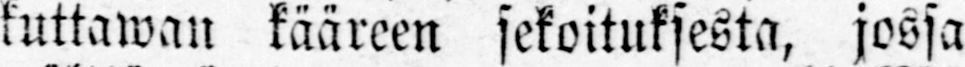kuttawan kääreen sekoituksesta, jossa
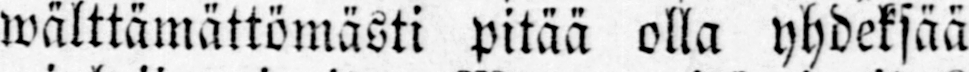wälttämättömästi pitää olla yhdeksää
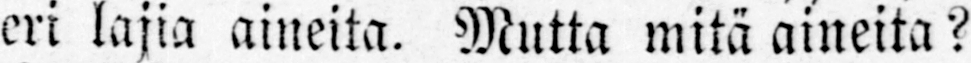eri lajia aineita. Mutta mitä aineita?
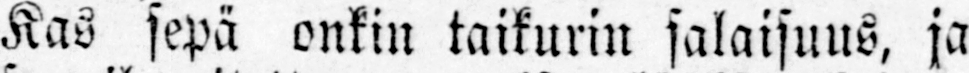Kas sepä onkin taikurin salaisuus, ja
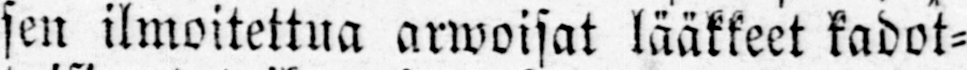sen ilmoitettua arwoisat lääkkeet kadot-
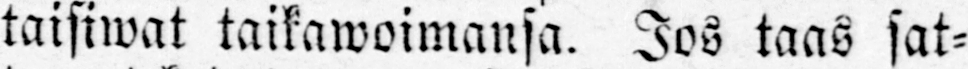taisiwat taikawoimansa. Jos taas sat-
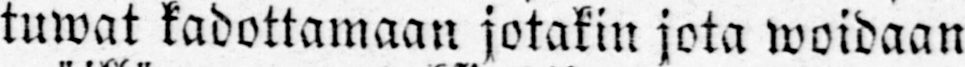tuwat kadottamaan jotakin jota woidaan
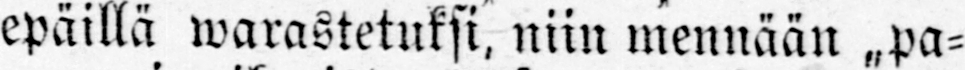epäillä warastetuksi, niin mennään „pa-
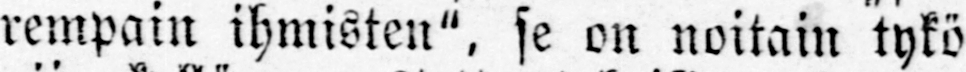rempain ihmisten", se on noitain tykö
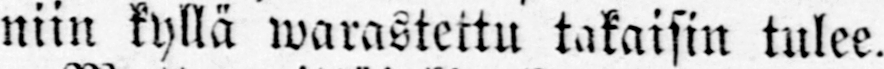niin kyllä warastettu takaisin tulee.
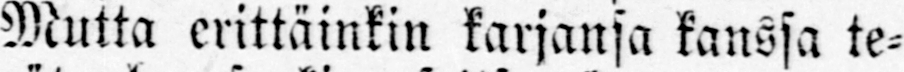Mutta erittäinkin karjansa kanssa te-
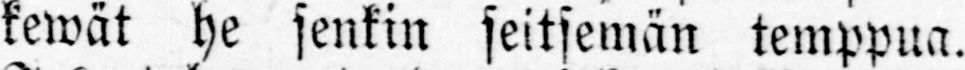kewät he senkin seitsemän temppua.
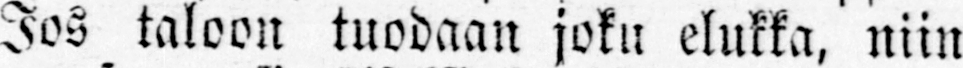Jos taloon tuodaan joku elukka, niin
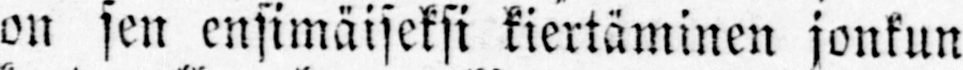on sen ensimäiseksi kiertäminen jonkun
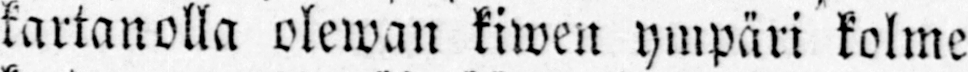kartanolla olewan kiwen ympäri kolme
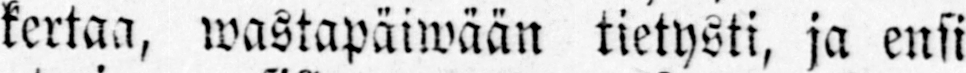kertaa, wastapäiwään tietysti, ja ensi
